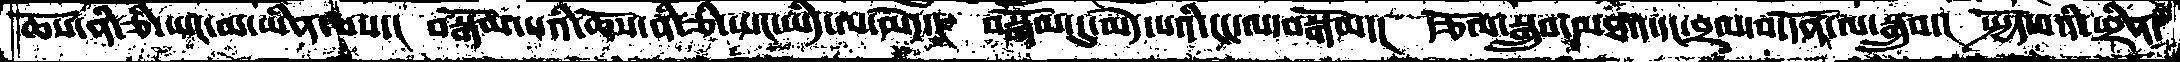ཆོས་ནི་ཅི་ཡང་མ་ཡིན་པས་།  བསྒོམ་པའི་ཆོས་ནི་ཅི་ཡང་ཡིད་ལ་མེད་།  བསྒོམ་དུ་མེད་པའི་ངང་ལ་བསྒོམ་།  རྩོལ་སྒྲུབ་མཐའ་དང་བྲལ་བ་དོན་ལ་སྒྲུབ་།  སྤྱོད་པའི་ཕྲིན་
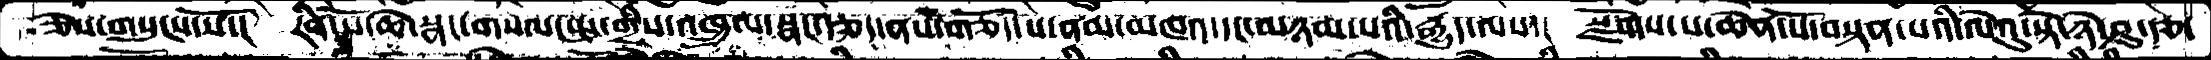ཅེས་གསུངས་སོ་།   རིན་པོ་ཆེ་སྣང་གསལ་སྤུ་གྲིས་འཁྲུལ་སྣང་རྩད་ནས་གཅོད་པ་ནམ་མཁའ་དང་མཉམ་པའི་རྒྱུད་ལས་།  སྫོགས་པ་ཆེན་པོ་བསྟན་པའི་ལེའུ་སྟེ་ཉེ་ཤུ་རྩ་
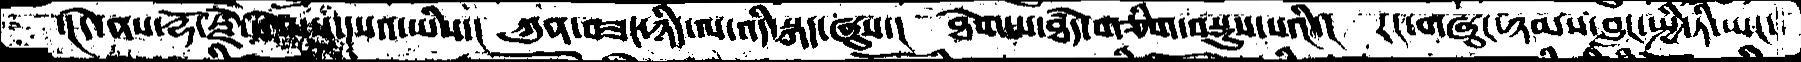་།དེ་ནས་རྡོ་རྗེ་སེམས་དཔའ་ཡིས་།  ཀུན་བཟང་ཉིད་ལ་འདི་སྐད་ཞུས་།  ཐེག་པ་ཐཾད་གཅིག་བསྡུས་པའི་།  རང་གཞུང་ཉམས་བླང་སྤྱི་ཏི་ཡང་།
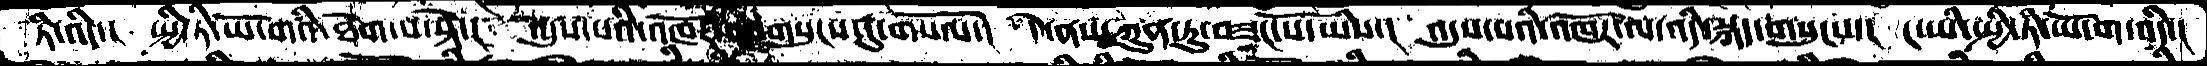ཏི་འདི་།  སྤྱི་ཏི་ཡོ་གའི་ཐེག་པ་སྟེ་།  འདུས་པའི་འཁོར་འདི་གསུངས་དུ་གསོལ་།  དེ་ནས་ཀུན་ཏུ་བཟང་པོ་ཡིས་།  འདུས་པའི་འཁོར་ལ་འདི་ལྐད་གསུངས་།  ང་ཡི་སྤྱི་ཏི་ཡོ་ག་འདི་།
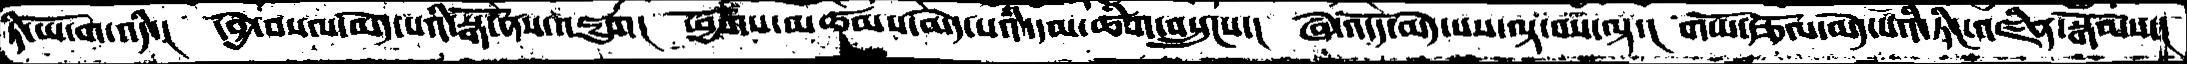ཏི་ཡོ་ག་འདི་།  དབྱེ་བསལ་མེད་པའི་སྒོ་ནས་འཇུག།  ཕྱོགས་མཚམས་མེད་པའི་དམ་ཚིག་བསྲུངས་།  ཞེ་འདོད་མེད་པས་ལྟ་བས་ལྟ་།  གཡོ་རྩོལ་མེད་པའི་ཏིང་འཛིན་སྒོམས་།
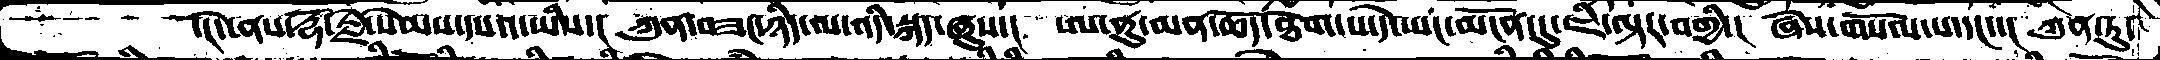་།དེ་ནས་རྡོ་རྗེ་སེམས་དཔའ་ཡིས་།  ཀུན་བཟང་ཉིད་ལ་འདི་སྐད་ཞུས་།  ཨ་ནུ་མན་ཆོད་ཐོག་པ་དེ་ཡང་མངོན་དུ་ཇི་ལྟར་བགྱི་།  ཞེས་གསོལ་པ་དང་་།  ཀུན་ཏུ་
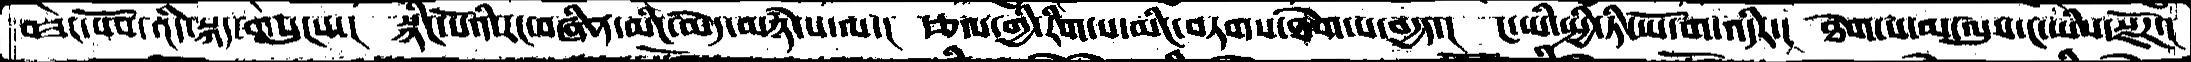བཟང་པོས་འདི་སྐད་གསུངས་།  སྙིང་པོའི་རང་བཞིན་མིང་མེད་མཉཾ་པ་ལ་།  རྩལ་གྱི་རིག་པ་མིང་བཏགས་ཐེག་པ་བདྱད་།  ང་ཡི་སྤྱི་ཏི་ཡོ་ག་འདིར་།  ཐེག་པ་མ་ལུས་ང་ཡིས་སྫོཌ་།
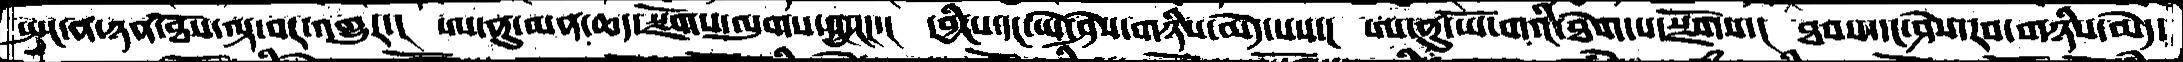སྤང་ན་ཉན་ཐོས་ལྟ་བར་འགྱུར་།  ཨ་ནུ་མན་ཆད་སྫོགས་ལུགས་གྱུར་་།  དབྱིངས་དང་ཡེ་ཤེས་གཉིས་མེད་པས་།  ཨ་ནུ་ཡོ་གའི་ཐེག་པ་སྫོགས་།  ཐབས་དང་ཤེས་རབ་གཉིས་མེད་
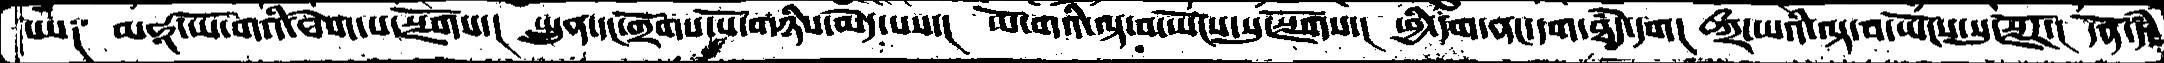པས༑   མ་ཧཱ་ཡོ་གའི་ཐེག་པ་སྫོགས་།  སྤྲུན་དང་གྲོགས་པོ་གཉིས་མེད་པས་།  ཡོ་གའི་ལྟ་བ་ཡོངས་སུ་སྫོགས་།  ཕྱི་དག་ནང་དག་ཐཾད་དག།  ཀྲི་ཡའི་ལྟ་བ་ཡོངས་སུ་སྫོཌ་།  དོན་དཾ་
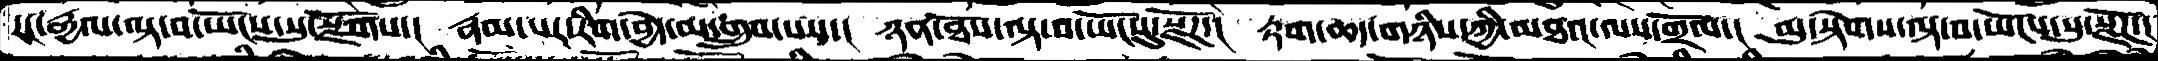རང་རྒྱལ་ལྟ་བ་ཡོངས་སུ་སྫོགས་།  རྣམ་པར་རིག་བྱེད་མ་གྲུབ་པས་།  ཉན་ཐོས་ལྟ་བ་ཡོངསུ་སྫོཌ་།  རྟག་ཆད་གཉིས་ཀྱི་མཐའ་ལས་གྲོལ་།  མུ་སྟེགས་ལྟ་བ་ཡོངས་སུ་སྫོཌ་།
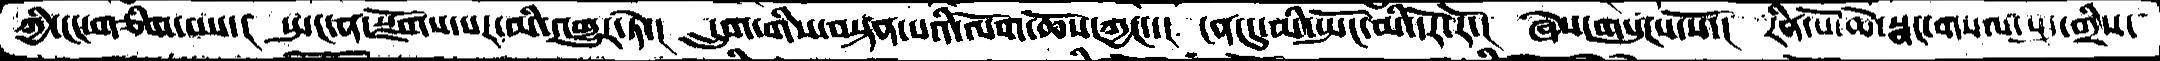ཀྱི་ངང་གཅིག་པས་།  སྤང་ན་སྫོགས་པར་མི་འགྱུར་ཏེ་།  དྲུག་གིས་བསྟན་པའི་ལོག་ཆོས་ཀྱང་་།  ངན་དུ་མི་སྤོང་མི་དོར་རོ་།  ཞེས་གསུངས་སོ་།  རིན་པོ་ཆེ་སྣང་གསལ་སྤུ་གྲིས་
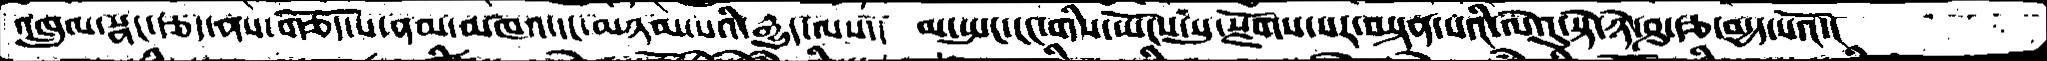འཁྲུལ་སྣང་རྩད་ནས་གཅོད་པ་ནམ་མཁའ་དང་མཉམ་པའི་རྒྱུད་ལས་།  མ་སྤང་ངང་གིས་ཡོངས་སུ་སྫོགས་པར་བསྟན་པའི་ལེའུ་སྟེ་ཉེ་ཤུ་རྩ་བདྱད་པའོ་།
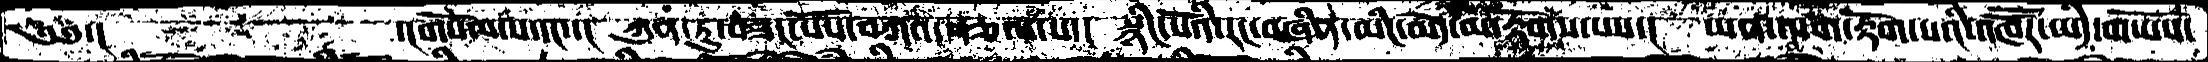༄༅་།     ་།གསོལ་པ་དང་་།།  ཀུན་ཏུ་བཟང་པོས་བཀའ་སྩལ་པ་།  སྙིང་པོའི་རང་བཞིན་མིང་མེད་མ་རྟོགས་པས་།   ཡན་ལག་རྟོག་པའི་འཁཽར་ཡིད་གཡོས་
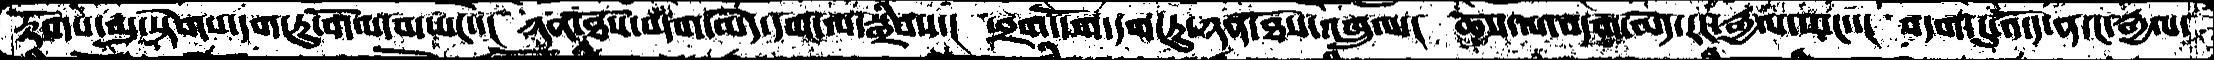རྟོགས་མུ་སྟེགས་དག་ཏུ་གོལ་བ་ཡང་་།  ཉན་ཐོས་བདག་མེད་དག་ལ་སྒྲིབས་།  ཕྲག་དོག་དག་ཏུ་ཉན་ཐོས་འཁྲུལ་།  ཆོས་ལ་བདག་མེད་རང་རྒྱལ་ཡང་་།  བདག་དུ་འདོད་ན་ང་རྒྱལ་
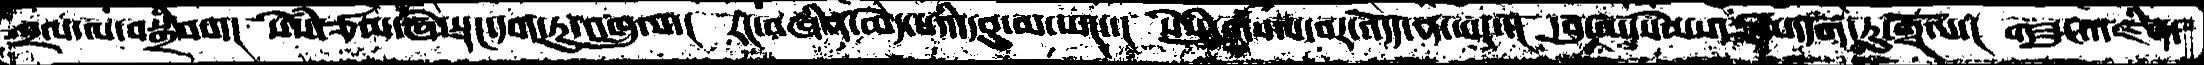བྲལ་ལ་བསྒྲིབས་།  སེཾས་ཙམ་ཞེ་སྡང་དག་ཏུ་འཁྲུལ་།  རང་བཞིན་མེད་པའི་དབུ་མ་ཡང་་།  སེཾསུ་གསལ་བར་འདོད་ན་ཡང་་།  དབུ་མ་སེམས་ཙམ་དག་ཏུ་གྲོལ་།  གཟུང་འཛིན་
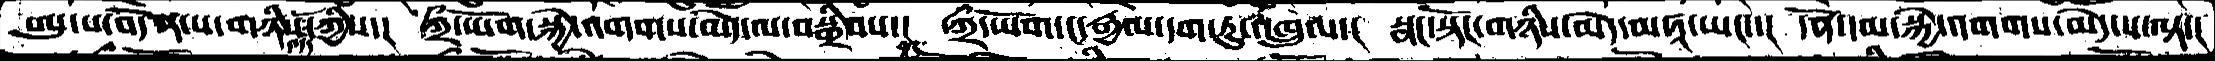ཨུ་པ་བདེན་པ་གཉིས་འདོད་ཀྱིས་།  ཀྲྀ་ཡོག་སྐྱེ་འགགས་མེད་ལ་བསྒྲིབས་།  ཀྲྀ་ཡོག་ང་རྒྱལ་དག་ཏུ་འཁྲུལ་།  སྣང་སྟོང་གཉིས་མེད་མཧཱ་ཡང་།  དོན་དམ་སྐྱེ་འགགས་མེད་པ་ལྟ་།
